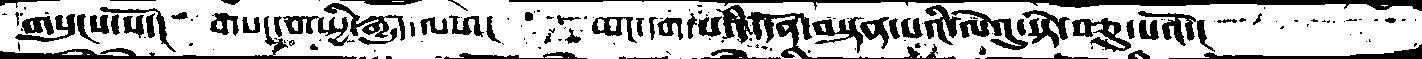གསུངས་སོ་།  གསང་བ་སྤྱི་རྒྱུད་ལས་།   ཡང་དག་པའི་དོན་བསྟན་པའི་ལེའུ་སྟེ་བཅུ་པའོ་།
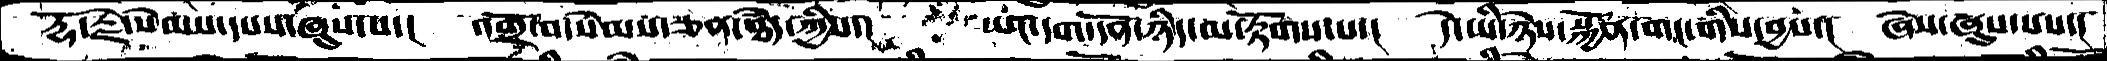རྡོ་རྗེ་སེམས་དཔས་ཞུས་པ་།   འགྲོ་བ་སེམས་ཅན་ཐཾད་ཀྱིས་།  ཡང་དག་དོན་ཉིད་མ་རྟོགས་པ་།  དེ་ཡི་ཉེས་སྐྱོན་གང་གིས་བྱས་།  ཞེས་ཞུས་པས་།
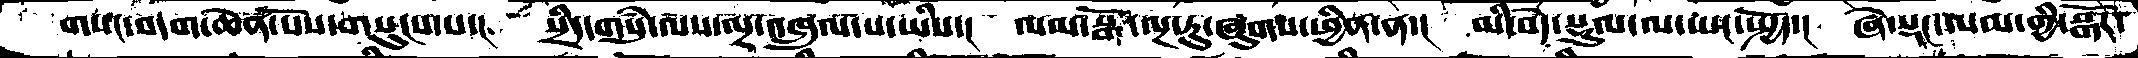གསང་བདག་ཆེན་པོས་གསུངས་པ་།  སྲིད་གསུམ་ལས་ལྔ་འཁྲུལ་པ་ཡིས་།  ལམ་སྒོ་ལྔ་རུ་ཞུགས་ཕྱིན་ན་།  མི་བདེ་སྡུལ་ལ་ཡང་སྤྱོད་།  ཞེ་སྡང་ལམ་གྱི་སྒོར་
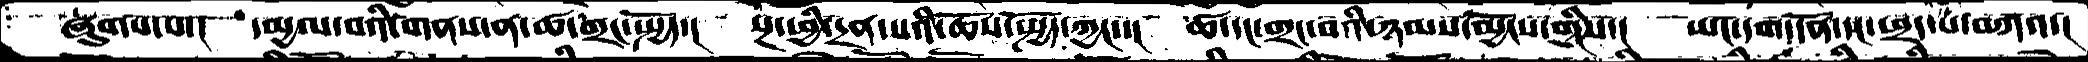ཞུགས་པ་།  དམྱལ་བའི་གནས་ན་ཚ་གྲང་སྤྱོད་།  སྔ་ཕྱི་དྲན་པའི་ཆོས་སྤྱོད་ཀྱང་་།  ཚ་དང་གྲང་བའི་ཉམས་མྱོངས་གྱིས་།  ཡང་དག་དོན་དང་ཕྲད་པ་བཀའ་།
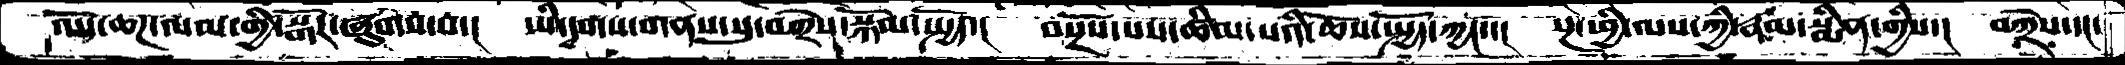འདོད་ཆཌ་ལམ་གྱི་སྒོར་ཞུགས་པ་།  ཡི་དྭགས་གནས་སུ་བཀྲེས་སྐོམ་སྤྱོད་།  བསྔོས་པས་ཚིམ་པའི་ཆོས་སྤྱོད་ཀྱང་་།  སྔ་ཕྱི་ལས་ཀྱི་རྣམ་སྨིན་གྱིས་།  བཀྲེས་དང་
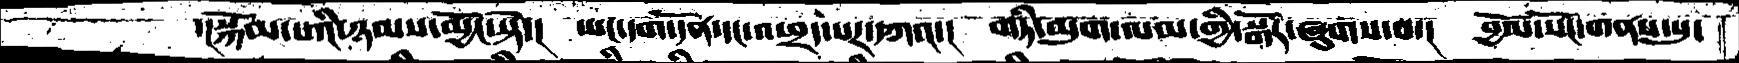་།སྐོམ་པའི་ཉམས་མྱོང་སྟེ་།  ཡང་དག་དོན་དང་འཕྲད་པར་དཀའ་།   གཏི་མུག་ལམ་གྱི་སྒོར་ཞུགས་པ་།   བྱོལ་སོང་གནས་སུ་
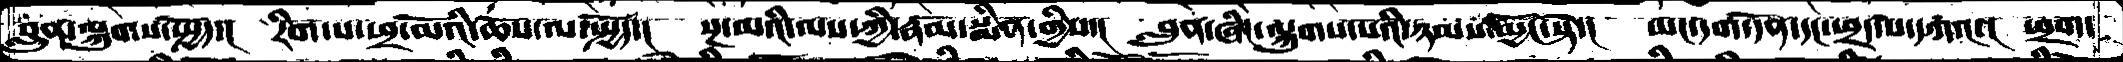བླུན་ལྐུགས་སྤྱོད་།  རིག་པ་ཕྲ་མོའི་ཆོས་ལ་སྤྱོད་།   སྔ་མའི་ལས་ཀྱི་རྣམ་སྨིན་གྱིས་།   བླུན་ཞིང་ལྐུགས་པའི་ཉམས་མྱོང་སྟེ་།   ཡང་དག་དོན་དང་ཕྲད་པ་དཀའ་།   ཕྲག་
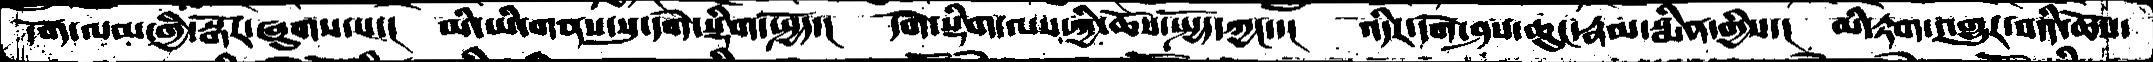དོག་ལམ་གྱི་སྒོར་ཞུགས་པ་།   མི་ཡི་གནས་སུ་དགེ་སྡིག་སྤྱོད་།   དགེ་སྡིག་ལས་ཀྱི་ཆོས་སྤྱོད་ཀྱང་་།   འདིར་དགེ་ཤས་ཆུང་རྣམ་སྨིན་གྱིས་།   མི་རྟག་འགྱུར་བའི་ཆོས་
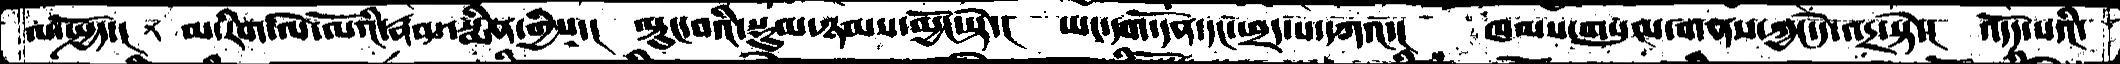ལ་སྤྱོད་།  མ་རིག་ལེ་ལོའི་རྣམ་སྨིན་གྱིས་། ལྟུང་བའི་སྡུལ་ཉམས་མྱོང་སྟེ་། ཡང་དག་དོན་དང་ཕྲད་པ་དཀའ་། ཁམས་གསུམ་གནས་ཀྱང་དེ་འདྲ་སྟེ་། འདོད་པའི་
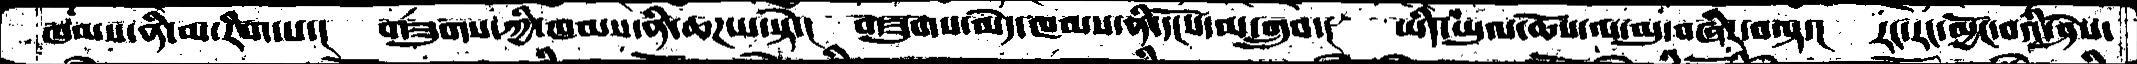ཁམས་ནི་མ་རིག་པ་།   གཟུགས་ཀྱི་ཁམས་ནི་ཆཌ་པ་སྟེ་།   གཟུགས་མེད་ཁམས་ནི་དངོས་མ་གྲུབ་།   ཡིད་ཡུལ་ཆོས་ལ་མུ་བཞིར་བལྟ་།   རང་རང་མྱོང་བའི་ཤེས་
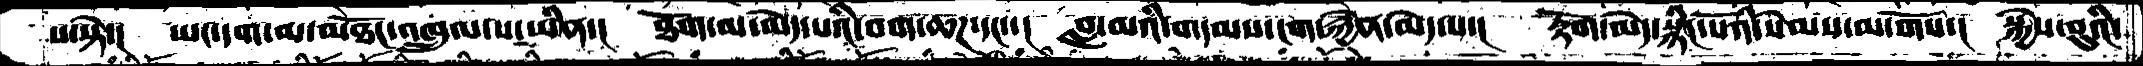པ་སྟེ་།   ཡང་དག་མ་མཐོང་འཁྲུལ་པ་ཡིན་།   ཐོག་མ་མེད་པའི་བག་ཆཌ་དང་་།   བླ་མའི་གདམས་ངག་རྐྱེན་མེད་ལ་།  རྟོག་མེད་སྙིང་པོའི་སེམས་མ་གོས་།  སྐྱེས་བུའི་
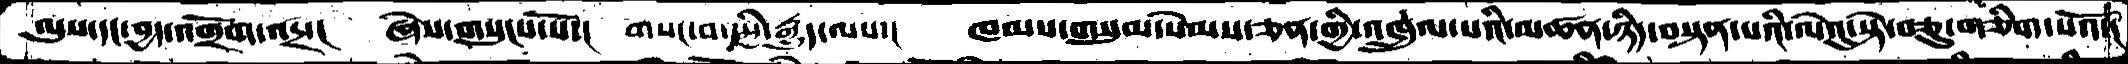ལུས་དང་བྱད་འགྲོག་འདྲ་། ཞེས་གསུངས་སོ་། གསང་བ་སྤྱི་རྒྱུད་ལས་། ཁམས་གསུམ་སེམས་ཅན་གྱི་འཁྲུལ་པའི་མཚན་ཉིད་བསྟན་པའི་ལེའུ་སྟེ་བཅུ་གཅིག་པའོ་།
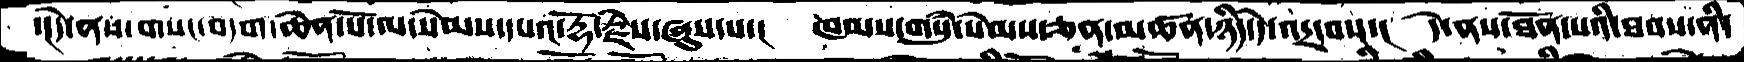་།དེ་ནས་གསང་བདག་ཆེན་པོ་ལ་སེམས་དཔའ་རྡོ་རྗེས་ཞུས་པ་།   ཁམས་གསུཾ་སེམས་ཅན་མཚན་ཉིད་དེ་འདྲ་བས་།  དེ་ནས་ཐོན་པའི་ཐབས་ནི་
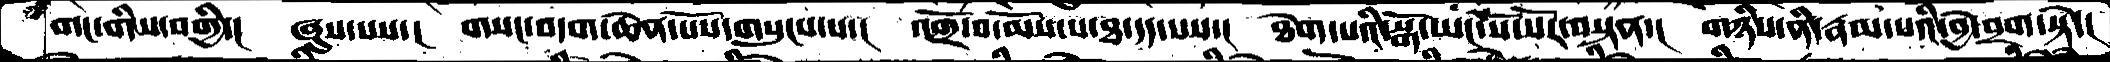གང་གིས་བགྱི་།  ཞུས་པས་།  གསང་བདག་ཆེན་པོས་གསུངས་པ་།  འགྲོ་བ་མོས་པ་ཐ་དད་པས་།  ཐེག་པའི་སྒོ་ཡང་སོ་སོར་བསྟན་།  གཉིས་ནི་རྣམ་པའི་བྱེ་བྲག་སྟེ་།
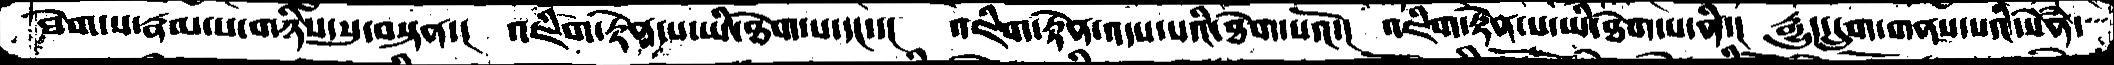ཐེག་པ་རྣམ་པ་གཉིས་སུ་བསྟན་།   འཇིག་རྟེན་པ་ཡི་ཐེག་པ་དང་་།  འཇིག་རྟེན་འདས་པའི་ཐེག་པའོ་།  འཇིག་རྟེན་པ་ཡི་ཐེག་པ་ནི་།   རྒྱུད་དྲུག་གནས་པའི་སེཾན་
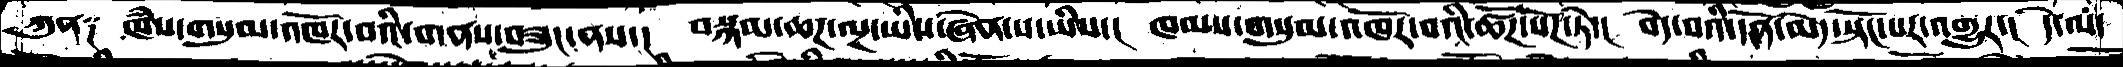ཀུན༑  ཁཾས་གསུམ་འཁོར་བའི་གནས་བཟུང་ནས་།  བསྐམ་ཆཌ་ལྔ་ཡིས་ཞེན་པ་ཡིས་།  ཁམས་གསུམ་འཁོར་བའི་ཚོཌ་སོཌ་ཏེ་།  བདེ་བའི་དོན་མེད་སྟོང་པར་འགྱུར་།  དེ་ལ་
